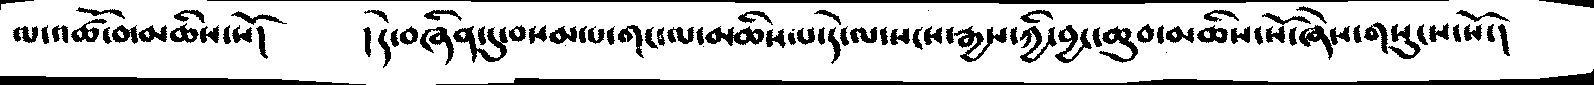ལ་འཚོ་བ་མཆིས་སོ།   །དེ་བཞིན་དུ་བསམ་པ་གང་ལ་མཆིས་པ་དེ་ལ་སངས་རྒྱས་ཀྱི་བྱང་ཆུབ་མཆིས་སོ་ཞེས་གསུངས་སོ་།
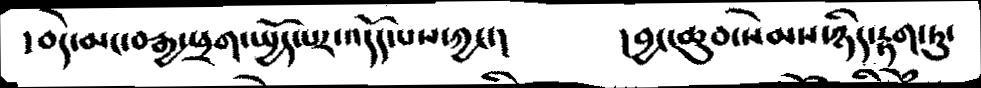། བདེ་མང་བརྒྱ་ཕྲག་སྤྱོད་པར་འདོད་པས་ཀྱང་།        །བྱང་ཆུབ་སེམས་ཉིད་རྟག་ཏུ་
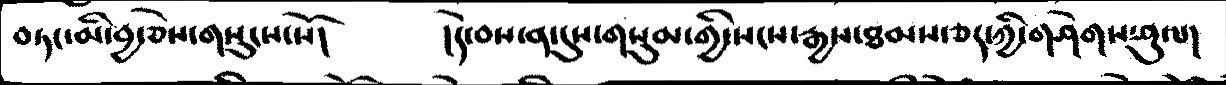བཏང་མི་བྱ་ཅེས་གསུངས་སོ།        །དེ་བས་ན་དུས་གསུམ་གྱི་སངས་རྒྱས་ཐམས་ཅད་ཀྱི་གཤེགས་ཤུལ།
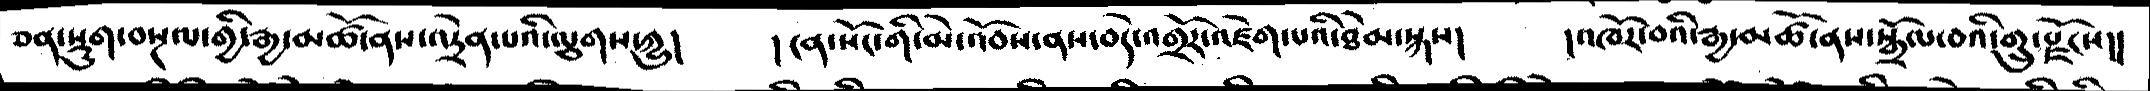ཅན་སྡུག་བསྔལ་གྱི་རྒྱ་མཚོ་ནས་འདྲེན་པའི་ལྕགས་ཀྱུ།     །ངན་སོང་གི་མེ་འོབས་ནས་བདེ་འགྲོར་འཛེག་པའི་ཐེམ་སྐས།    །འཁོར་བའི་རྒྱ་མཚོ་ནས་སྒྲོལ་བའི་གྲུ་རྫོངས།།
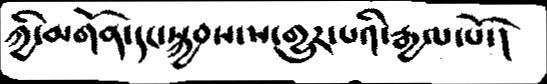ཀྱི་མགོན་དང་སྐྱབས་ས་གྱུར་པའི་རྒྱལ་པོ་།
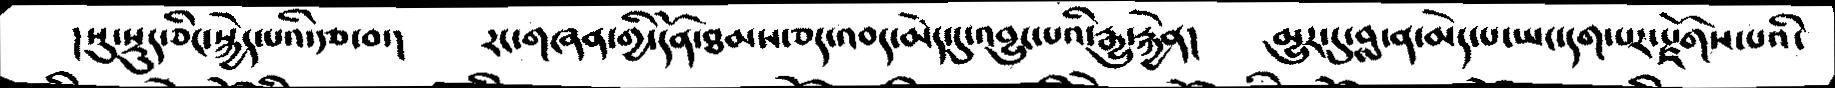།སུ་སྡུད་ཅིང་སྐྱེད་པའི་རྩ་བ་།     རང་གཞན་གྱི་དོན་ཐམས་ཅད་འབད་མེད་དུ་འབྱུང་པའི་རྒྱུ་རྐྱེན།   མྱུར་དུ་བླ་ན་མེད་པ་ཡང་དག་པར་རྫོགས་པའི་
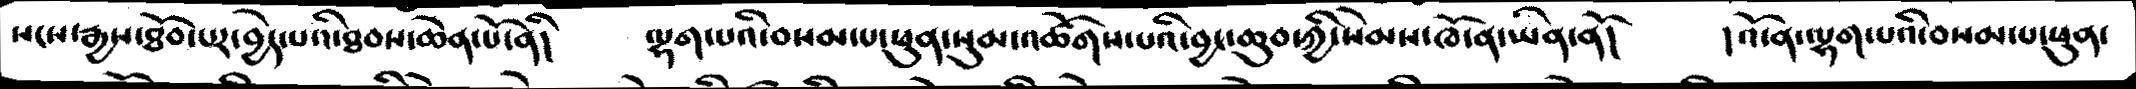སངས་རྒྱས་ཐོབ་པར་བྱེད་པའི་ཐབས་ཆེན་པོ་ནི།     ལྷག་པའི་བསམ་པ་ཕུན་སུམ་འཚོགས་པའི་བྱང་ཆུབ་ཀྱི་སེམས་ཁོ་ན་ཡིན་ནོ།     །འོ་ན་ལྷག་པའི་བསམ་པ་ཕུན་
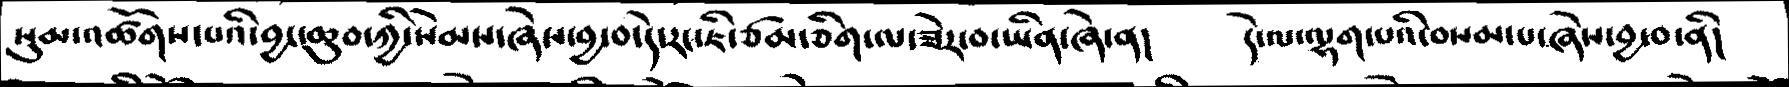སུམ་འཚོགས་པའི་བྱང་ཆུབ་ཀྱི་སེམས་ཞེས་བྱ་བ་དེ་རང་ཇི་ཙམ་ཅིག་ལ་ཟེར་བ་ཡིན་ཞེ་ན།     དེ་ལ་ལྷག་པའི་བསམ་པ་ཞེས་བྱ་བ་ནི།
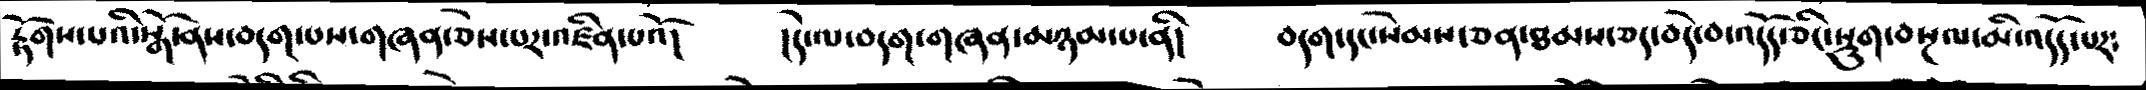རྟོགས་པའི་སྒོ་ནས་བདག་པས་གཞན་ཅེས་པར་འཛིན་པའོ།   །དེ་ལ་བདག་གཞན་མཉམ་པ་ནི།     བདག་དང་སེམས་ཅན་ཐམས་ཅད་བདེ་བ་འདོད་ཅིང་སྡུག་བསྔལ་མི་འདོད་པར༴
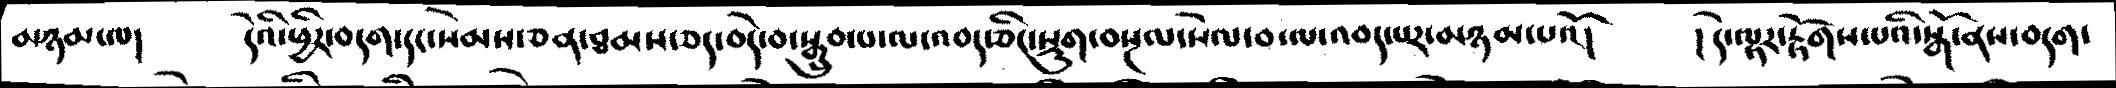མཉམ་ལ།    དེའི་ཕྱིར་བདག་དང་སེམས་ཅན་ཐམས་ཅད་བདེ་བ་སྒྲུབ་པ་ལ་འབད་ཅིང་སྡུག་བསྔལ་སེལ་བ་ལ་འབད་པར་མཉམ་པའོ།   །དེ་ལྟར་རྟོགས་པའི་སྒོ་ནས་བདག་
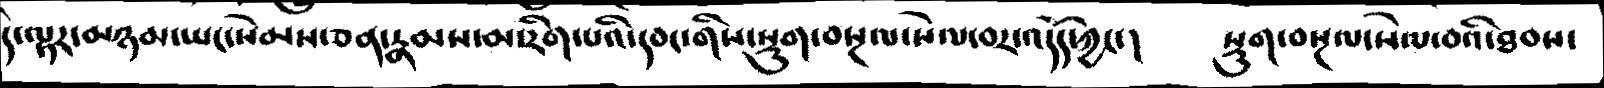དེ་ལྟར་མཉམ་ཡང་སེམས་ཅན་རྣམས་མ་རིག་པའི་དབང་གིས་སྡུག་བསྔལ་སེལ་བར་འདོད་ཀྱང་།    སྡུག་བསྔལ་སེལ་བའི་ཐབས་
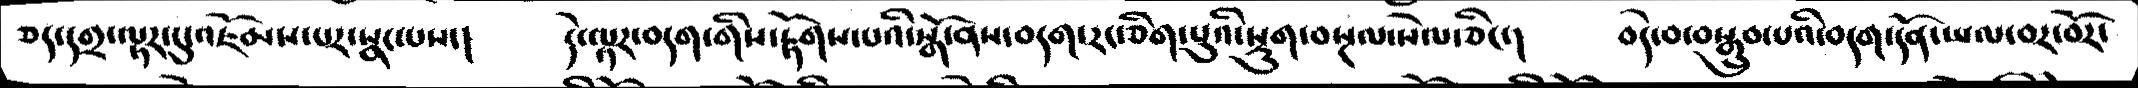ཅད་དགྲ་ལྟར་འཇོམས་པར་སྣང་པས་།     དེ་ལྟར་བདག་གིས་རྟོགས་པའི་སྒོ་ནས་བདག་རང་ཅིག་པུའི་སྡུག་བསྔལ་སེལ་ཅིང་།   བདེ་བ་བསྒྲུབ་པའི་བདག་དོན་ཡལ་བར་བོར་
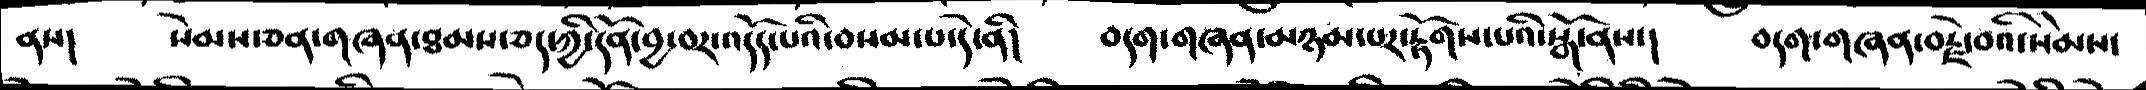ནས།      སེམས་ཅན་གཞན་ཐམས་ཅད་ཀྱི་དོན་བྱ་བར་འདོད་པའི་བསམ་པ་དེ་ནི།    བདག་གཞན་མཉམ་པར་རྟོགས་པའི་སྒོ་ནས་།   བདག་གཞན་བརྗེ་བའི་སེམས་
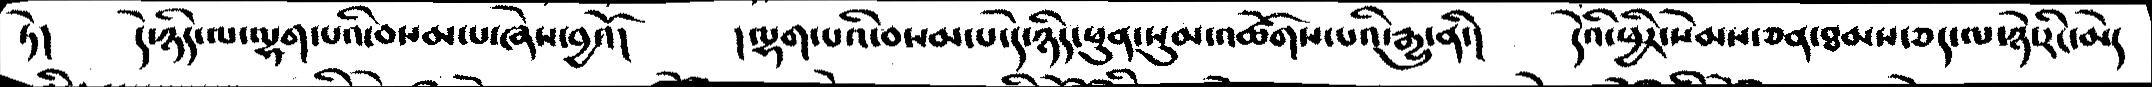ཏེ།      དེ་ཉིད་ལ་ལྷག་པའི་བསམ་པ་ཞེས་བྱའོ།     །ལྷག་པའི་བསམ་པ་དེ་ཉིད་ཕུན་སུམ་འཚོགས་པའི་རྒྱུ་ནི་།   དེའི་ཕྱིར་སེམས་ཅན་ཐམས་ཅད་ལ་ཉེ་རིང་མེད
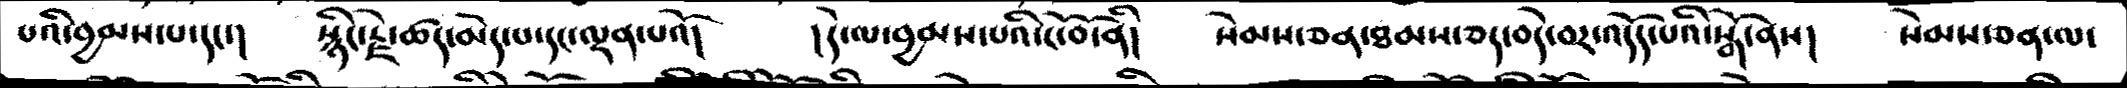པའི་བྱམས་པ་དང་།    སྙིང་རྗེ་ཚད་མེད་པ་དང་ལྡན་པའོ།    །དེ་ལ་བྱམས་པའི་ངོ་བོ་ནི།   སེམས་ཅན་ཐམས་ཅད་བདེ་བར་འདོད་པའི་སྒོ་ནས།    སེམས་ཅན་ལ་
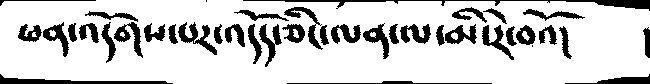ཕན་འདོགས་པར་འདོད་ཅིང་ལན་ལ་མི་རེ་བའོ།
